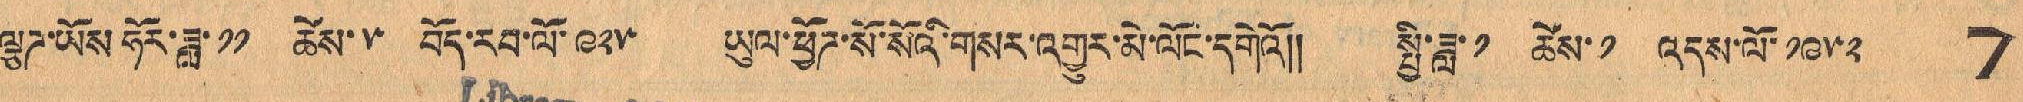ལྕཊ་ཡོས་ཧོར་ཟླ་ ༡༡ ཚེས་ ༥ བོད་རབ་ལོ་ ༩༢༥ ཡུལ་ཕྱོཊ་སོ་སོའི་གསར་འགྱུར་མེ་ལོང་དགེའོ།། སྤྱི་ཟླ་ ༡ ཚེས་ ༡ འདས་ལོ་ ༡༩༥༢ 7
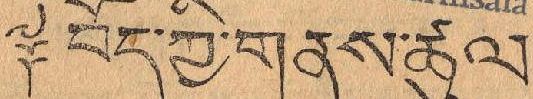༈ བོད་ཀྱི་གནས་ཚུལ།
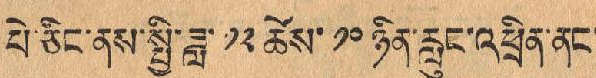པེ་ཅིང་ནས་སྤྱི་ཟླ་ ༡༢ ཚེས་ ༡༠ ཉིན་རླུང་འཕྲིན་ནང་
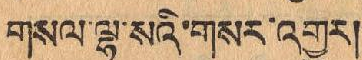གསལ་ལྷ་སའི་གསར་འགྱུར།
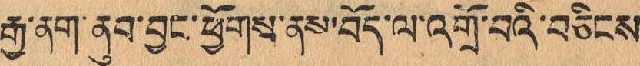རྒྱ་ནག་ནུབ་བྱང་ཕྱོགས་ནས་བོད་ལ་འགྲོ་བའི་བཅིངས་
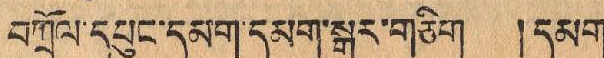བཀྲོལ་དཔུང་དམག་དམག་སྒར་གཅིག །དམག་
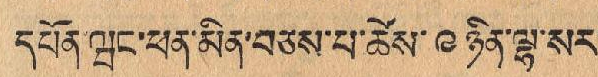དཔོན་ཝང་ཕན་མིན་བཅས་པ་ཚེས་ ༩ ཉིན་ལྷ་སར
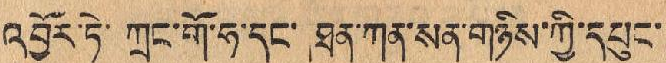འབྱོར་ཏེ་ ཀྲང་གོ་ཧ་དང་ ཐན་ཀན་སན་གཉིས་ཀྱི་དཔུང་
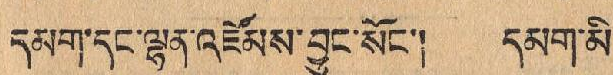དམག་དང་ལྷན་འཛོམས་བྱུང་སོང་། དམག་མི་
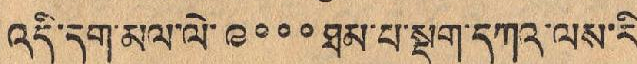འདི་དག་མལ་ལེ་ ༩༠༠༠ མ་པ་སྡུག་དཀའ་ལས་རི་
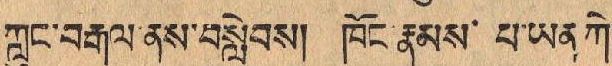ཀླུང་བརྒལ་ནས་བསླེབས། ཁོང་རྣམས་ པ་ཡན་ཀེ་
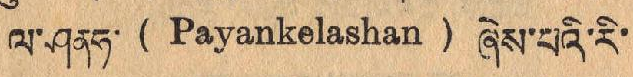ལ་ཤནཧ་ ( Payankelashan ) ཞེས་པའི་རི་
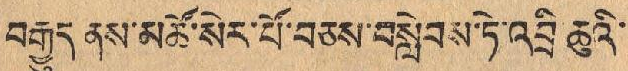བརྒྱུད་ནས་མཚོ་སེར་པོ་བཅས་བསླེབས་ཏེ་འབྲི་ཆུའི་
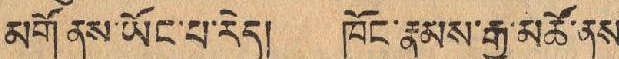མགོ་ནས་ཡོང་པ་རེད། ཁོང་རྣམས་རྒྱ་མཚོ་ནས་
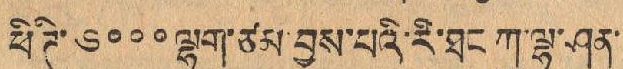ཕི་ཊི་ ༧༠༠༠ ལྷག་ཙམ་བྱས་པའི་རི་ཐང་ཀུ་ལྷ་ཤན་
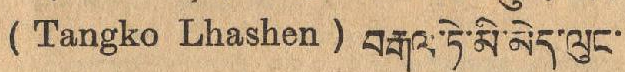( Tangko Lhashen ) བརྒལ་ཏེ་མི་མེད་ལུང་
